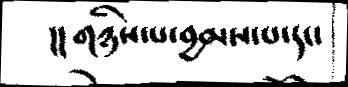།།གཉིས་པ་བྱམས་པ་དང་
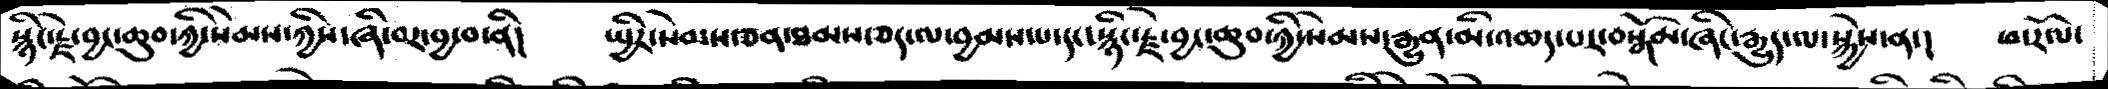སྙིང་རྫེ་བྱང་ཆུབ་ཀྱི་སེམས་ཀྱིས་ཞི་བར་བྱ་བ་ནི།     སྤྱིར་སེམས་ཅན་ཐམས་ཅད་ལ་བྱམས་པ་དང་སྙིང་རྫེ་བྱང་ཆུབ་ཀྱི་སེམས་རྒྱུན་མི་འཆད་པར་བསྒོམ་ཞིང་རྒྱུད་ལ་སྐྱེས་ན་།    ཕ་རོལ་
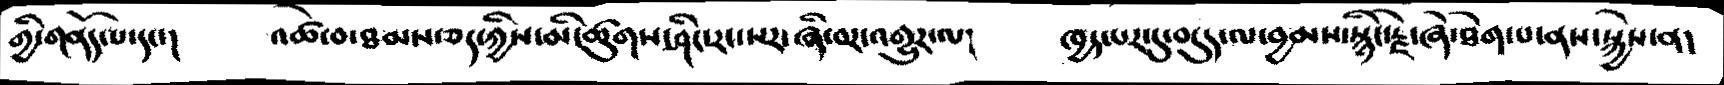གྱི་གནོད་པ་དང་།     འཚེ་བ་ཐམས་ཅད་ཀྱིས་མི་ཚུགས་ཤིང་རང་སར་ཞི་བར་འགྱུར་ལ།     ཁྱད་པར་དུ་བདུད་ལ་བྱམས་སྙིང་རྫེ་ཞེ་ཐེག་པ་ནས་སྐྱེས་ན།
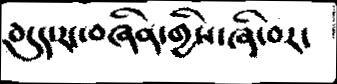བདུད་རང་བཞིན་གྱིས་ཞི་བར་
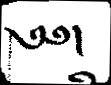༄༅།
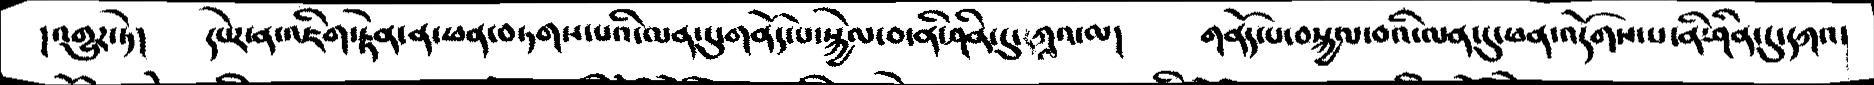།འགྱུར་ཏེ།     དཔེར་ན་འཇིག་རྟེན་ན་ཕན་བཏགས་པའི་ལན་དུ་གནོད་པ་སྐྱེལ་བ་ནི་ཤིན་དུ་དཀའ་ལ།    གནོད་པ་བསྐྱལ་བའི་ལན་དུ་ཕན་འདོགས་པ་ནི་ཤིན་དུ་དཀའ་
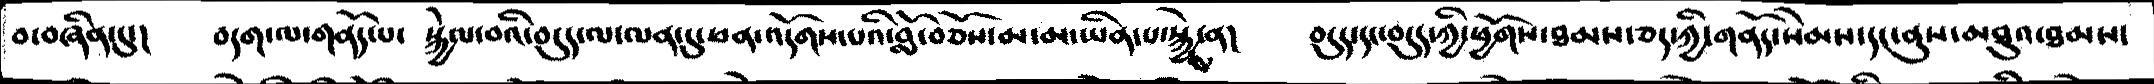བ་བཞིན་དུ་།    བདག་ལ་གནོད་པ་  སྐྱེལ་བའི་བདུད་ལ་ལན་དུ་ཕན་འདོགས་པའི་བློ་བཅོས་མ་མ་ཡིན་པ་སྐྱེས་ན།    བདུད་དང་བདུད་ཀྱི་ཕྱོགས་ཐམས་ཅད་ཀྱི་གནོད་སེམས་དང་ནུས་མཐུའ་ཐམས་
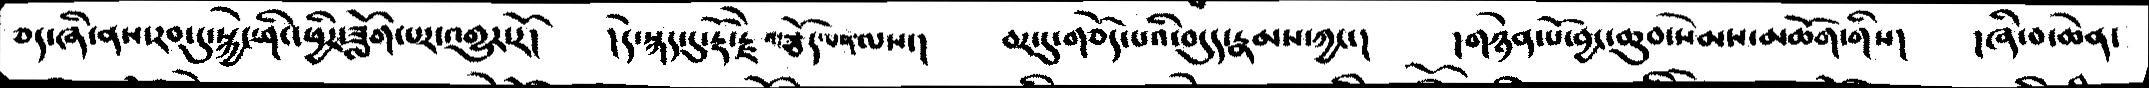ཅད་ཞི་ནས་རབ་དུ་སྐྱེདཤིང་ཕྱིར་ཟློག་པར་འགྱུར་རོ།    །དེ་སྐད་དུ་རྡོ་རྗེ་གཅོད་པ་ལས་།     བར་དདུ་གཅོད་པའི་བདུད་རྣམས་ཀྱང་།    །གཉེན་པོ་བྱང་ཆུབ་སེམས་མཆོག་གིས།    །ཞི་བ་ཆེན་
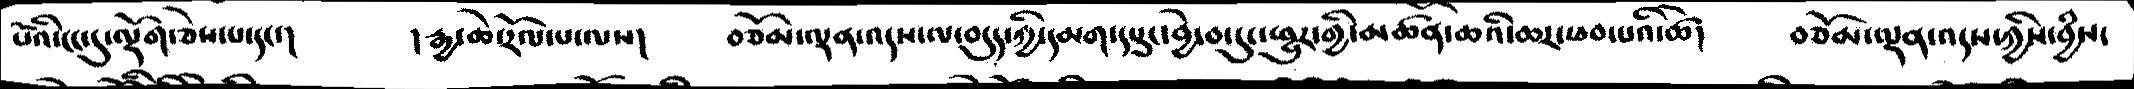པོའི་ངང་དུ་ལྡོག་ཅེས་པ་དང་།      །རྒྱ་ཆེ་རོལ་པ་ལས།    བཅོམ་ལྡན་འདས་ལ་བདུད་ཀྱི་དམག་དཔུང་བྱེ་བ་དུང་ཕྱུར་གྱི་མཚོན་ཆའི་ཆར་ཕབ་པའི་ཚེ།   བཅོམ་ལྡན་འདས་ཀྱིས་བྱཾས་
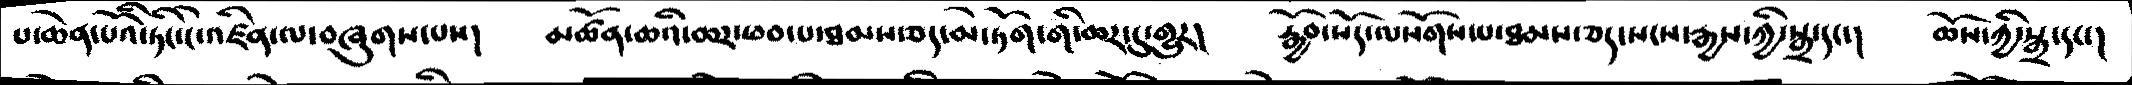པ་ཆེན་པོའི་ཏིང་ངེ་འཛིན་ལ་བཞུགས་པས།   མཚོན་ཆའི་ཆར་ཕབ་པ་ཐམས་ཅད་མེ་ཏོག་གི་ཆར་དུ་གྱུར།   རྒྱོབ་སོད་ལསོགས་པ་ཐམས་ཅད་སངས་རྒྱས་ཀྱི་སྒྲ་དང་།   ཆོས་ཀྱི་སྒྲ་དང་།
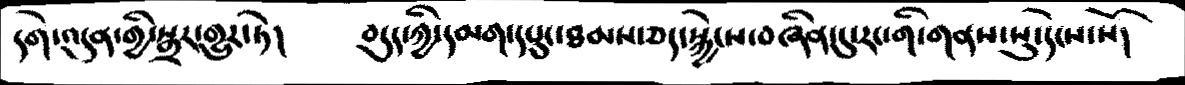དགེ་འདུན་གྱི་སྒྲར་གྱུར་ཏེ།   བདུད་ཀྱི་དམགདཔུང་ཐམས་ཅད་སྐྱེངས་བཞིན་དུ་རང་གི་གནས་སུ་དེངས་སོ།
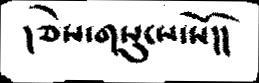།ཅེས་གསུངས་སོ།།
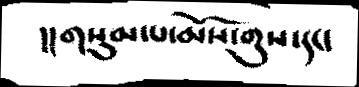།།གསུམ་པ་མོས་གུས་དང།
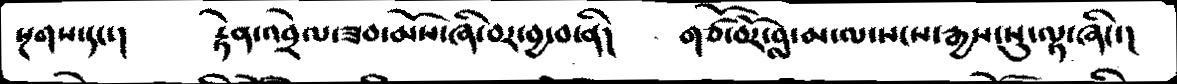སྔགས་དང་།   རྟེན་འབྲེལ་ཟབ་མོས་ཞི་བར་བྱ་བ་ནི།     གཙོ་བོར་བླ་མ་ལ་སངས་རྒྱས་སུ་ལྟ་ཞིང་།
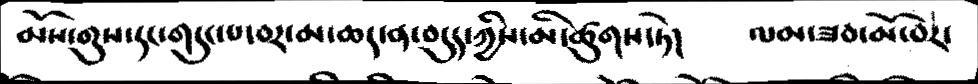མོས་གུས་དང་གདུང་པ་བར་མ་ཆད་ན་བདུད་ཀྱིས་མི་ཚུགས་ཏེ།    ལམ་ཟབ་མོ་བར་
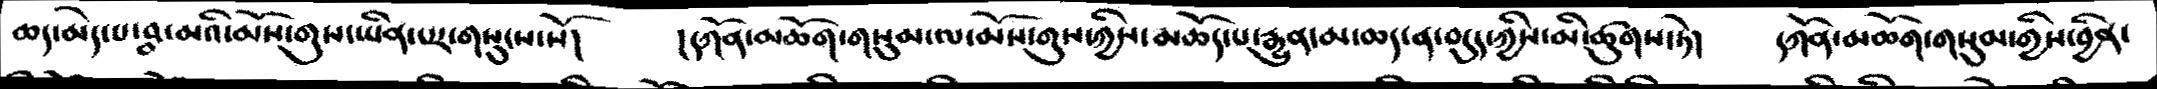ཆད་མེད་པ་བླ་མའི་མོས་གུས་ཡིན་པར་གསུངས་སོ།     །དཀོན་མཆོག་གསུམ་ལ་མོས་གུས་ཀྱིས་མཆོད་པ་རྒྱུན་མ་ཆད་ན་བདུད་ཀྱིས་མི་ཚུགས་ཏེ།   དཀོན་མཆོག་གསུམ་གྱིས་བྱིན་
